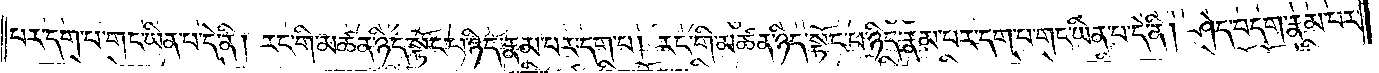པར་དག་པ་གང་ཡིན་པ་དེ་ནི། རང་གི་མཚན་ཉིད་སྟོང་པ་ཉིད་རྣམ་པར་དག་པ། རང་གི་མཚན་ཉིད་སྟོང་པ་ཉིད་རྣམ་པར་དག་པ་གང་ཡིན་པ་དེ་ནི། ཤེད་བདག་རྣམ་པར་
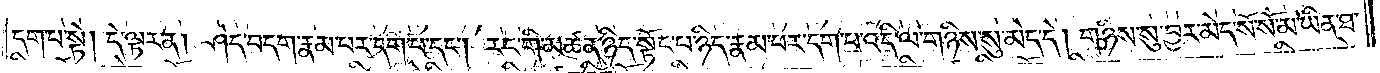དག་པ་སྟེ། དེ་ལྟར་ན། ཤེད་བདག་རྣམ་པར་དག་པ་དང༌། རང་གི་མཚན་ཉིད་སྟོང་པ་ཉིད་རྣམ་པར་དག་པ་འདི་ལ་གཉིས་སུ་མེད་དེ། གཉིས་སུ་བྱར་མེད་སོ་སོ་མ་ཡིན་ཐ་
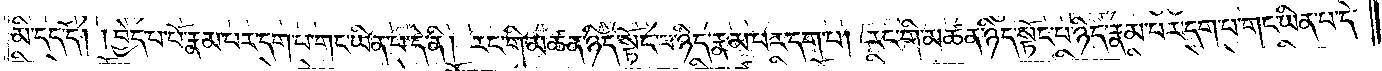མི་དད་དོ། །བྱེད་པ་པོ་རྣམ་པར་དག་པ་གང་ཡིན་པ་དེ་ནི། རང་གི་མཚན་ཉིད་སྟོང་པ་ཉིད་རྣམ་པར་དག་པ། རང་གི་མཚན་ཉིད་སྟོང་པ་ཉིད་རྣམ་པར་དག་པ་གང་ཡིན་པ་དེ་
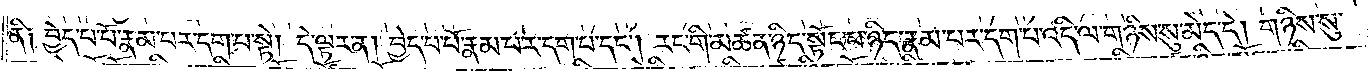ནི། བྱེད་པ་པོ་རྣམ་པར་དག་པ་སྟེ། དེ་ལྟར་ན། བྱེད་པ་པོ་རྣམ་པར་དག་པ་དང༌། རང་གི་མཚན་ཉིད་སྟོང་པ་ཉིད་རྣམ་པར་དག་པ་འདི་ལ་གཉིས་སུ་མེད་དེ། གཉིས་སུ་
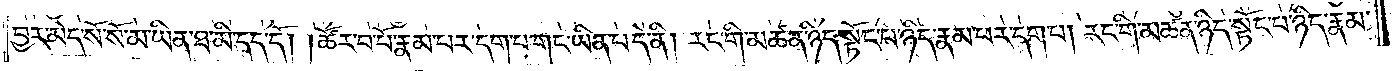བྱར་མེད་སོ་སོ་མ་ཡིན་ཐ་མི་དད་དོ། །ཚོར་བ་པོ་རྣམ་པར་དག་པ་གང་ཡིན་པ་དེ་ནི། རང་གི་མཚན་ཉིད་སྟོང་པ་ཉིད་རྣམ་པར་དག་པ། རང་གི་མཚན་ཉིད་སྟོང་པ་ཉིད་རྣམ་
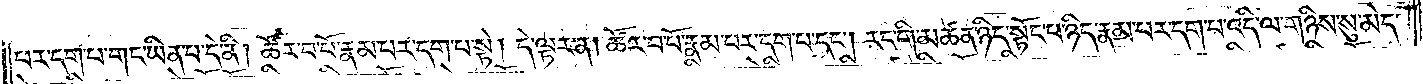པར་དག་པ་གང་ཡིན་པ་དེ་ནི། ཚོར་བ་པོ་རྣམ་པར་དག་པ་སྟེ། དེ་ལྟར་ན། ཚོར་བ་བོ་རྣམ་པར་དག་པ་དང༌། རང་གི་མཚན་ཉིད་སྟོང་པ་ཉིད་རྣམ་པར་དག་པ་འདི་ལ་གཉིས་སུ་མེད་
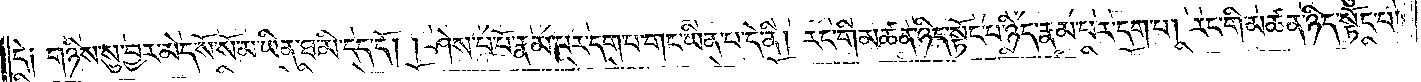དེ། གཉིས་སུ་བྱར་མེད་སོ་སོ་མ་ཡིན་ཐ་མི་དད་དོ། །ཤེས་པ་པོ་རྣམ་པར་དག་པ་གང་ཡིན་པ་དེ་ནི། རང་གི་མཚན་ཉིད་སྟོང་པ་ཉིད་རྣམ་པར་དག་པ། རང་གི་མཚན་ཉིད་སྟོང་པ་
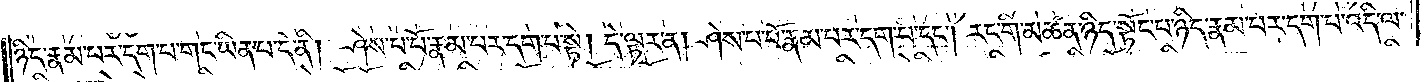ཉིད་རྣམ་པར་དག་པ་གང་ཡིན་པ་དེ་ནི། ཤེས་པ་པོ་རྣམ་པར་དག་པ་སྟེ། དེ་ལྟར་ན། ཤེས་པ་པོ་རྣམ་པར་དག་པ་དང༌། རང་གི་མཚན་ཉིད་སྟོང་པ་ཉིད་རྣམ་པར་དག་པ་འདི་ལ་
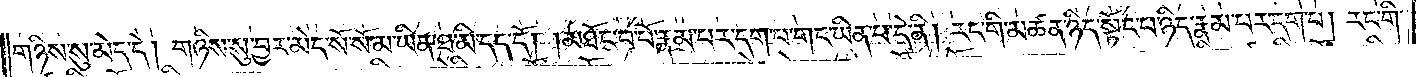གཉིས་སུ་མེད་དེ། གཉིས་སུ་བྱར་མེད་སོ་སོ་མ་ཡིན་ཐ་མི་དད་དོ། །མཐོང་བ་པོ་རྣམ་པར་དག་པ་གང་ཡིན་པ་དེ་ནི། རང་གི་མཚན་ཉིད་སྟོང་པ་ཉིད་རྣམ་པར་དག་པ། རང་གི་
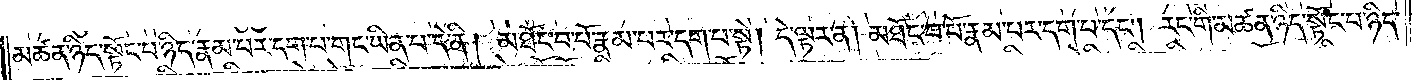མཚན་ཉིད་སྟོང་པ་ཉིད་རྣམ་པར་དག་པ་གང་ཡིན་པ་དེ་ནི། མཐོང་བ་པོ་རྣམ་པར་དག་པ་སྟེ། དེ་ལྟར་ན། མཐོང་བ་པོ་རྣམ་པར་དག་པ་དང༌། རང་གི་མཚན་ཉིད་སྟོང་པ་ཉིད་
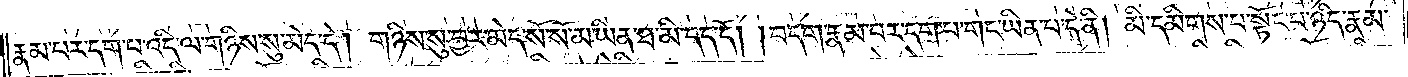རྣམ་པར་དག་པ་འདི་ལ་གཉིས་སུ་མེད་དེ། གཉིས་སུ་བྱར་མེད་སོ་སོ་མ་ཡིན་ཐ་མི་དད་དོ། །བདག་རྣམ་པར་དག་པ་གང་ཡིན་པ་དེ་ནི། མི་དམིགས་པ་སྟོང་པ་ཉིད་རྣམ་
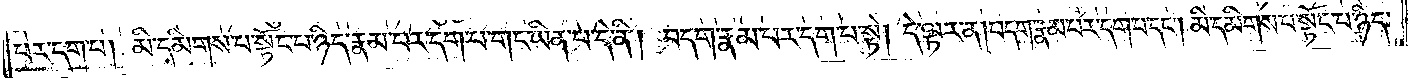པར་དག་པ། མི་དམིགས་པ་སྟོང་པ་ཉིད་རྣམ་པར་དག་པ་གང་ཡིན་པ་དེ་ནི། བདག་རྣམ་པར་དག་པ་སྟེ། དེ་ལྟར་ན། བདག་རྣམ་པར་དག་པ་དང༌། མི་དམིགས་པ་སྟོང་པ་ཉིད་
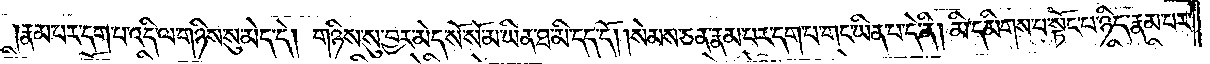རྣམ་པར་དག་པ་འདི་ལ་གཉིས་སུ་མེད་དེ། གཉིས་སུ་བྱར་མེད་སོ་སོ་མ་ཡིན་ཐ་མི་དད་དོ། །སེམས་ཅན་རྣམ་པར་དག་པ་གང་ཡིན་པ་དེ་ནི། མི་དམིགས་པ་སྟོང་པ་ཉིད་རྣམ་པར་
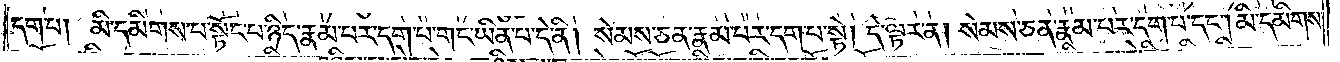དག་པ། མི་དམིགས་པ་སྟོང་པ་ཉིད་རྣམ་པར་དག་པ་གང་ཡིན་པ་དེ་ནི། སེམས་ཅན་རྣམ་པར་དག་པ་སྟེ། དེ་ལྟར་ན། སེམས་ཅན་རྣམ་པར་དག་པ་དང༌། མི་དམིགས་
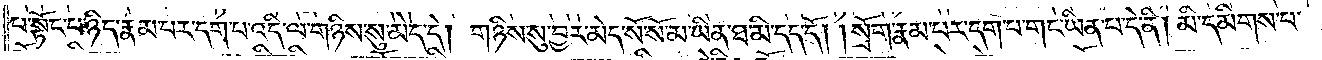པ་སྟོང་པ་ཉིད་རྣམ་པར་དག་པ་འདི་ལ་གཉིས་སུ་མེད་དེ། གཉིས་སུ་བྱར་མེད་སོ་སོ་མ་ཡིན་ཐ་མི་དད་དོ། །སྲོག་རྣམ་པར་དག་པ་གང་ཡིན་པ་དེ་ནི། མི་དམིགས་པ་
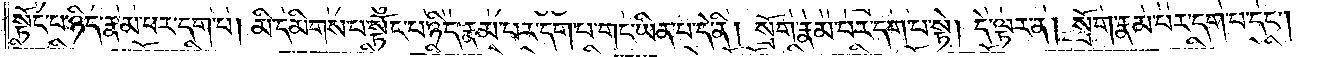སྟོང་པ་ཉིད་རྣམ་པར་དག་པ། མི་དམིགས་པ་སྟོང་པ་ཉིད་རྣམ་པར་དག་པ་གང་ཡིན་པ་དེ་ནི། སྲོག་རྣམ་པར་དག་པ་སྟེ། དེ་ལྟར་ན། སྲོག་རྣམ་པར་དག་པ་དང༌།
